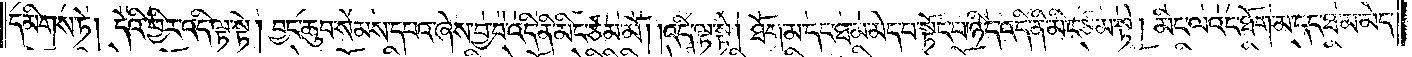དམིགས་ཏེ། དེའི་ཕྱིར་འདི་ལྟ་སྟེ། བྱང་ཆུབ་སེམས་དཔའ་ཞེས་བྱ་བ་འདི་ནི་མིང་ཙམ་མོ། །འདི་ལྟ་སྟེ། ཐོག་མ་དང་ཐ་མ་མེད་པ་སྟོང་པ་ཉིད་འདི་ནི་མིང་ཙམ་སྟེ། མིང་ལའང་ཐོག་མ་དང་ཐ་མ་མེད་
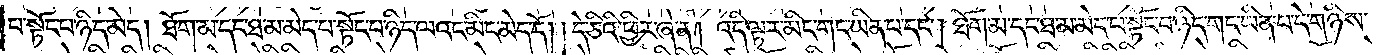པ་སྟོང་པ་ཉིད་མེད། ཐོག་མ་དང་ཐ་མ་མེད་པ་སྟོང་པ་ཉིད་ལའང་མིང་མེད་དོ། །དེ་ཅིའི་ཕྱིར་ཞེ་ན། འདི་ལྟར་མིང་གང་ཡིན་པ་དང༌། ཐོག་མ་དང་ཐ་མ་མེད་པ་སྟོང་པ་ཉིད་གང་ཡིན་པ་དེ་གཉིས་
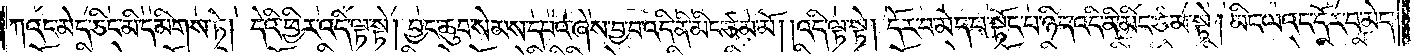ཀའང་མེད་ཅིང་མི་དམིགས་ཏེ། དེའི་ཕྱིར་འདི་ལྟ་སྟེ། བྱང་ཆུབ་སེམས་དཔའ་ཞེས་བྱ་བ་འདི་ནི་མིང་ཙམ་མོ། །འདི་ལྟ་སྟེ། དོར་བ་མེད་པ་སྟོང་པ་ཉིད་འདི་ནི་མིང་ཙམ་སྟེ། མིང་ལའང་དོར་བ་མེད་
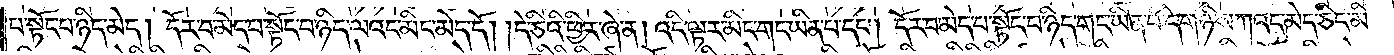པ་སྟོང་པ་ཉིད་མེད། དོར་བ་མེད་པ་སྟོང་པ་ཉིད་ལའང་མིང་མེད་དོ། །དེ་ཅིའི་ཕྱིར་ཞེ་ན། འདི་ལྟར་མིང་གང་ཡིན་པ་དང༌། དོར་བ་མེད་པ་སྟོང་པ་ཉིད་གང་ཡིན་པ་དེ་གཉིས་ཀའང་མེད་ཅིང་མི་
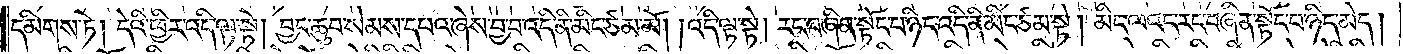དམིགས་ཏེ། དེའི་ཕྱིར་འདི་ལྟ་སྟེ། བྱང་ཆུབ་སེམས་དཔའ་ཞེས་བྱ་བ་འདི་ནི་མིང་ཙམ་མོ། །འདི་ལྟ་སྟེ། རང་བཞིན་སྟོང་པ་ཉིད་འདི་ནི་མིང་ཙམ་སྟེ། མིང་ལའང་རང་བཞིན་སྟོང་པ་ཉིད་མེད།
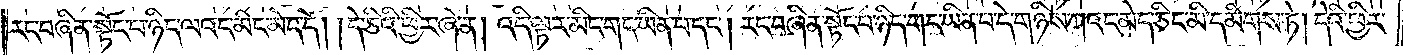རང་བཞིན་སྟོང་པ་ཉིད་ལའང་མིང་མེད་དོ། །དེ་ཅིའི་ཕྱིར་ཞེ་ན། འདི་ལྟར་མིང་གང་ཡིན་པ་དང༌། རང་བཞིན་སྟོང་པ་ཉིད་གང་ཡིན་པ་དེ་གཉིས་ཀའང་མེད་ཅིང་མི་དམིགས་ཏེ། དེའི་ཕྱིར་
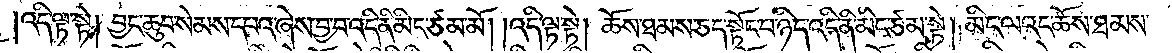འདི་ལྟ་སྟེ། བྱང་ཆུབ་སེམས་དཔའ་ཞེས་བྱ་བ་འདི་ནི་མིང་ཙམ་མོ། །འདི་ལྟ་སྟེ། ཆོས་ཐམས་ཅད་སྟོང་པ་ཉིད་འདི་ནི་མིང་ཙམ་སྟེ། མིང་ལའང་ཆོས་ཐམས་
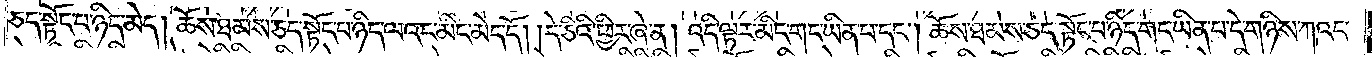ཅད་སྟོང་པ་ཉིད་མེད། ཆོས་ཐམས་ཅད་སྟོང་པ་ཉིད་ལའང་མིང་མེད་དོ། །དེ་ཅིའི་ཕྱིར་ཞེ་ན། འདི་ལྟར་མིང་གང་ཡིན་པ་དང༌། ཆོས་ཐམས་ཅད་སྟོང་པ་ཉིད་གང་ཡིན་པ་དེ་གཉིས་ཀའང་
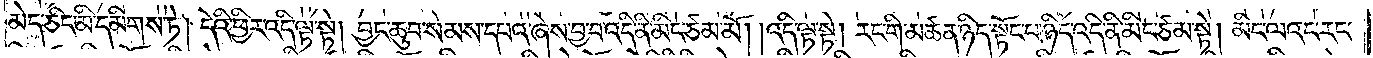མེད་ཅིང་མི་དམིགས་ཏེ། དེའི་ཕྱིར་འདི་ལྟ་སྟེ། བྱང་ཆུབ་སེམས་དཔའ་ཞེས་བྱ་བ་འདི་ནི་མིང་ཙམ་མོ། །འདི་ལྟ་སྟེ། རང་གི་མཚན་ཉིད་སྟོང་པ་ཉིད་འདི་ནི་མིང་ཙམ་སྟེ། མིང་ལའང་རང་
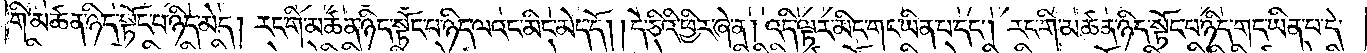གི་མཚན་ཉིད་སྟོང་པ་ཉིད་མེད། རང་གི་མཚན་ཉིད་སྟོང་པ་ཉིད་ལའང་མིང་མེད་དོ། །དེ་ཅིའི་ཕྱིར་ཞེ་ན། འདི་ལྟར་མིང་གང་ཡིན་པ་དང༌། རང་གི་མཚན་ཉིད་སྟོང་པ་ཉིད་གང་ཡིན་པ་དེ་
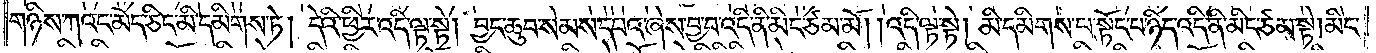གཉིས་ཀའང་མེད་ཅིང་མི་དམིགས་ཏེ། དེའི་ཕྱིར་འདི་ལྟ་སྟེ། བྱང་ཆུབ་སེམས་དཔའ་ཞེས་བྱ་བ་འདི་ནི་མིང་ཙམ་མོ། །འདི་ལྟ་སྟེ། མི་དམིགས་པ་སྟོང་པ་ཉིད་འདི་ནི་མིང་ཙམ་སྟེ། མིང་
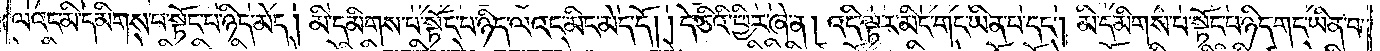ལའང་མི་དམིགས་པ་སྟོང་པ་ཉིད་མེད། མི་དམིགས་པ་སྟོང་པ་ཉིད་ལའང་མིང་མེད་དོ། །དེ་ཅིའི་ཕྱིར་ཞེ་ན། འདི་ལྟར་མིང་གང་ཡིན་པ་དང༌། མི་དམིགས་པ་སྟོང་པ་ཉིད་གང་ཡིན་པ་
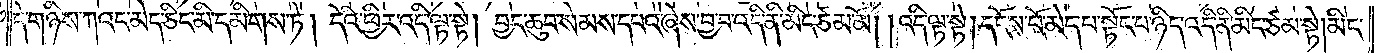དེ་གཉིས་ཀའང་མེད་ཅིང་མི་དམིགས་ཏེ། དེའི་ཕྱིར་འདི་ལྟ་སྟེ། བྱང་ཆུབ་སེམས་དཔའ་ཞེས་བྱ་བ་འདི་ནི་མིང་ཙམ་མོ། །འདི་ལྟ་སྟེ། དངོས་པོ་མེད་པ་སྟོང་པ་ཉིད་འདི་ནི་མིང་ཙམ་སྟེ། མིང་
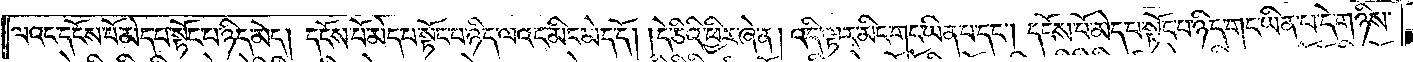ལའང་དངོས་པོ་མེད་པ་སྟོང་པ་ཉིད་མེད། དངོས་པོ་མེད་པ་སྟོང་པ་ཉིད་ལའང་མིང་མེད་དོ། །དེ་ཅིའི་ཕྱིར་ཞེ་ན། འདི་ལྟར་མིང་གང་ཡིན་པ་དང༌། དངོས་པོ་མེད་པ་སྟོང་པ་ཉིད་གང་ཡིན་པ་དེ་གཉིས་
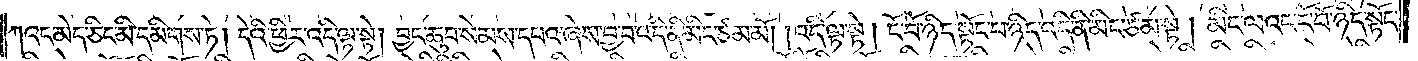ཀའང་མེད་ཅིང་མི་དམིགས་ཏེ། དེའི་ཕྱིར་འདི་ལྟ་སྟེ། བྱང་ཆུབ་སེམས་དཔའ་ཞེས་བྱ་བ་འདི་ནི་མིང་ཙམ་མོ། །འདི་ལྟ་སྟེ། ངོ་བོ་ཉིད་སྟོང་པ་ཉིད་འདི་ནི་མིང་ཙམ་སྟེ། མིང་ལའང་ངོ་བོ་ཉིད་སྟོང་
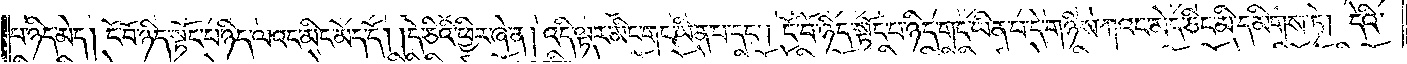པ་ཉིད་མེད། ངོ་བོ་ཉིད་སྟོང་པ་ཉིད་ལའང་མིང་མེད་དོ། །དེ་ཅིའི་ཕྱིར་ཞེ་ན། འདི་ལྟར་མིང་གང་ཡིན་པ་དང༌། ངོ་བོ་ཉིད་སྟོང་པ་ཉིད་གང་ཡིན་པ་དེ་གཉིས་ཀའང་མེད་ཅིང་མི་དམིགས་ཏེ། དེའི་
